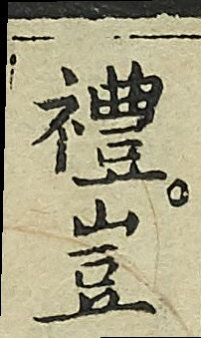禮豈
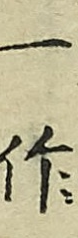一作
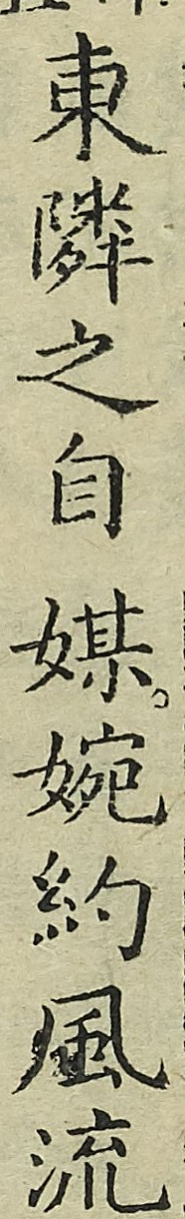東隣之自媒婉約風流
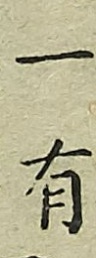一有
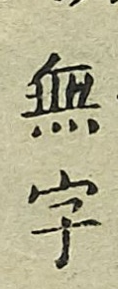無字
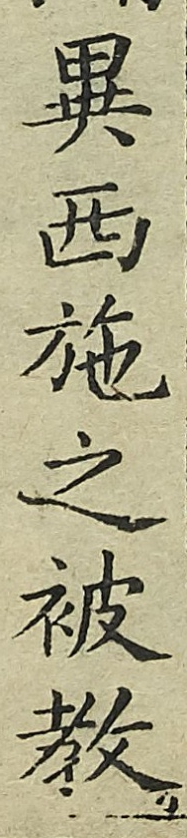異西施之被教
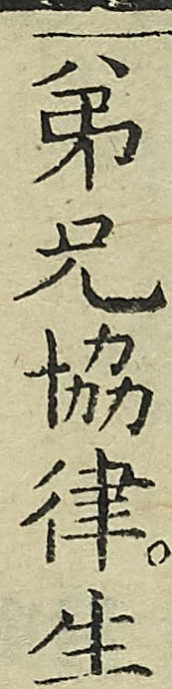弟兄協律生
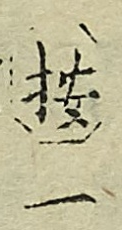（按）一
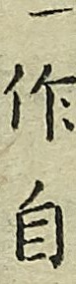作自
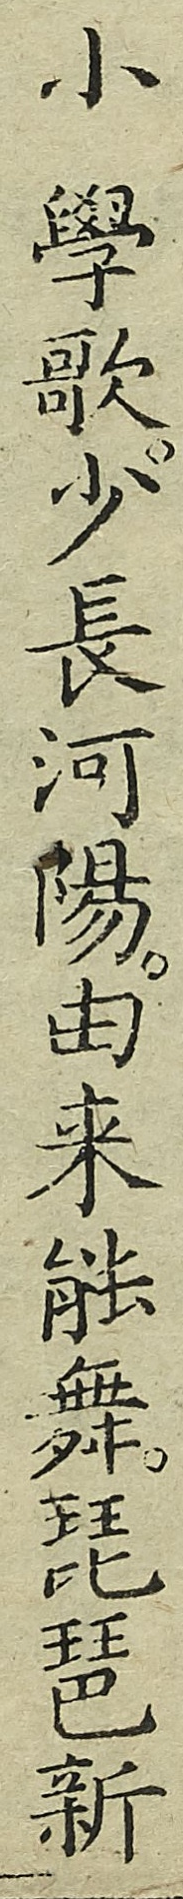小學歌少長河陽由來能舞琵琶新
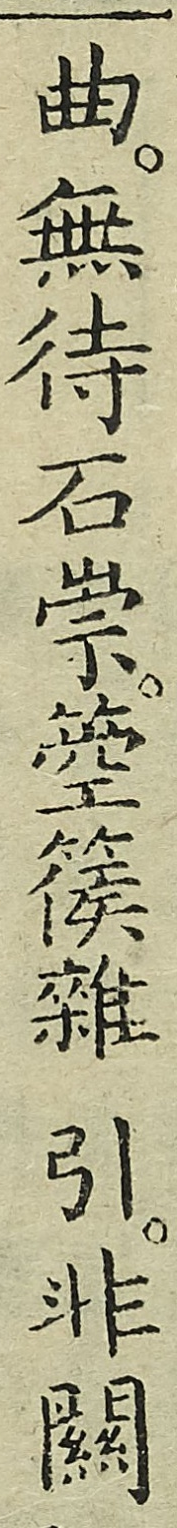曲無待石崇箜篌雜引非關
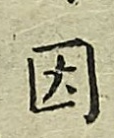因
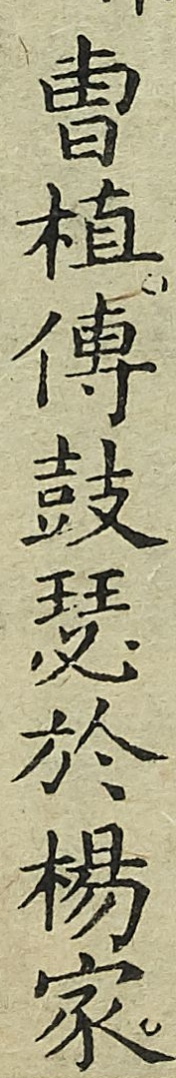曹植傳鼓瑟於楊家
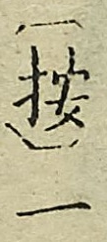（按）一
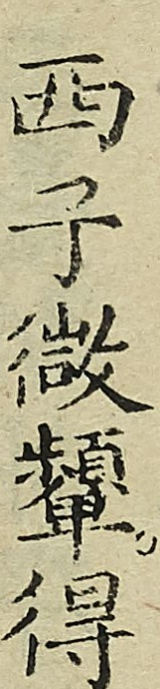西子微顰得
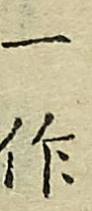一作
